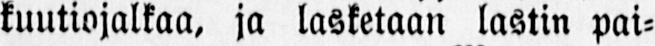kuutiojalkaa, ja lasketaan lastin pai-
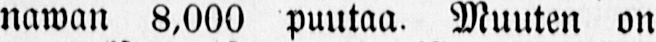nawan 8,000 puntaa. Muuten on
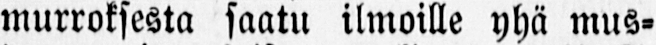murroksesta saatu ilmoille yhä mus-
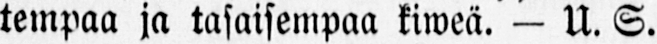tempaa ja tasaisempaa kiweä. — U. S.
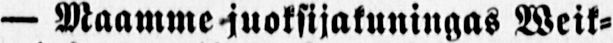— Maamme juoksijakuningas Weik-
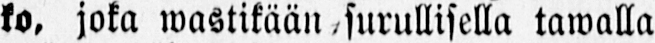ko, joka wastikään surullisella tawalla
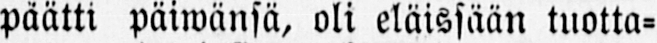päätti päiwänsä, oli eläissään tuotta-
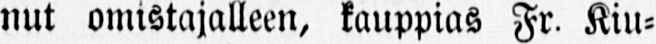nut omistajalleen, kauppias Fr. Kiu-
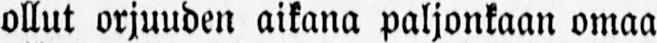ollut orjuuden aikana paljonkaan omaa
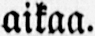aikaa.
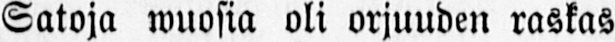Satoja wuosia oli orjuuden raskas
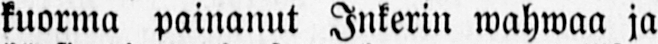kuorma painanut Inkerin wahwaa ja
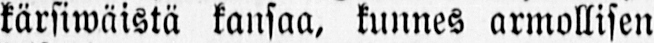kärsiwäistä kansaa, kunnes armollisen
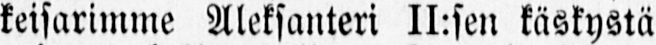keisarimme Aleksanteri II:sen käskystä
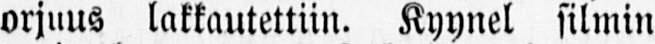orjuus lakkautettiin. Kyynel silmin
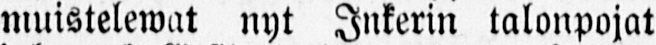muistelewat nyt Inkerin talonpojat
